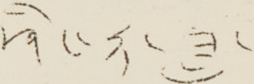ཤིང་རྟ་ཟླ་
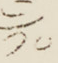༡༠
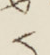༨
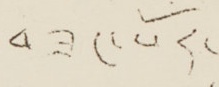བཟང་པོར་
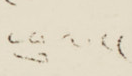ཕུལ།
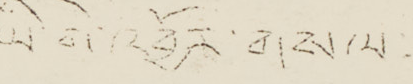ཡི་གེ་འབྱོར་གསལ:—
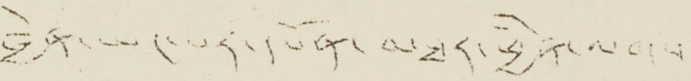མཁྱེན་ཡང་པར་དཔོན་མཐར་ཕྱིན་ལགས་
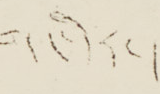གང་དེར།
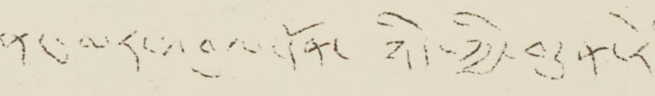ནང་མར་འབུལ་དོན་ཉིད་ཀྱི་བདུན་རེའི་
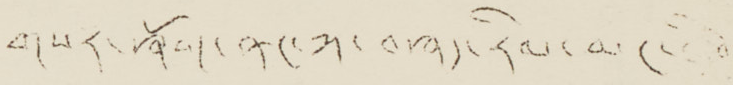གསར་ཤོག་ནང་ཀ་བཤད་རིལ་མང་རིག་
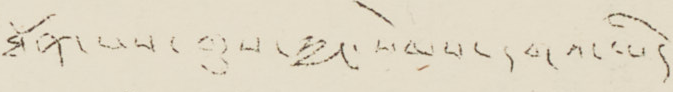ཐོན་པས་གུས་ཀྱང་སེམས་དགའ་ཡིད
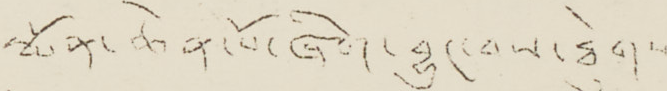སྨོན་ཆེན་པོ་ཞིག་བྱུང་བས་ཐེུགས་
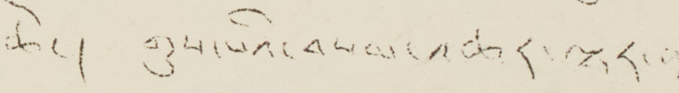ཆེ། གུས་པའི་བསམ་འཆར་ལྟར་ན
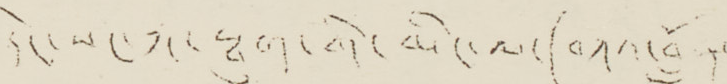དེང་སང་ཀ་སྟུག་གི་མིང་ལ་(བཀའ་བློན་
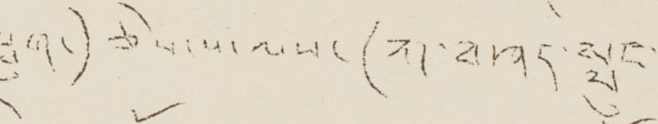སྤུག་) ཅེས་པ་ལས་ (ཀ་བཤད་སྤུང་)
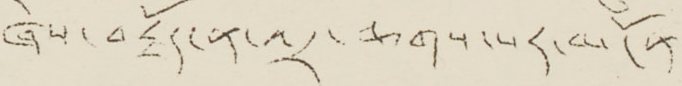ཞེས་བརྗོད་ན་འདྲ་ཆགས་པར་མངོན
